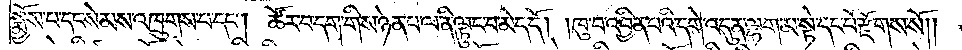སྨྱོས་པ་དང་སེམས་འཁྲུགས་པ་དང༌། ཚོར་བ་དག་གིས་ཉེན་པ་ལ་ནི་ལྟུང་བ་མེད་དོ། །ཁུ་བ་འབྱིན་པའི་དགེ་འདུན་ལྷག་མ་སྟེ་དང་པོ་རྫོགས་སོ༎
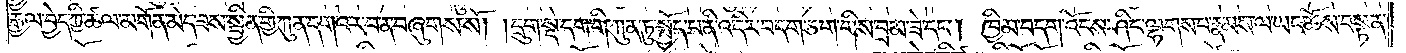རྒྱལ་བྱེད་ཀྱི་ཚལ་མགོན་མེད་ཟས་སྦྱིན་གྱི་ཀུན་དགའ་ར་བ་ན་བཞུགས་སོ། །དྲུག་སྡེ་དག་གི་ཀུན་ཏུ་སྤྱོད་པ་ནི་འདིར་བདག་ཅག་གིས་བྲམ་ཟེ་དང༌། ཁྱིམ་བདག་འོངས་ཤིང་ལྷགས་པ་རྣམས་ལ་ཡང་ཆོས་བསྟན་
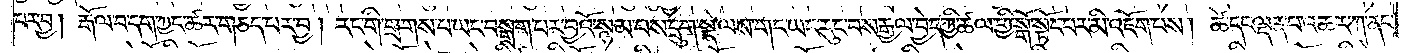པར་བྱ། རྒོལ་བ་དག་ཀྱང་ཚར་གཅད་པར་བྱ། རང་གི་གྲགས་པ་ཡང་བསྒྲག་པར་བྱའོ་སྙམ་པས་དྲུག་སྡེ་ལས་གང་ཡང་རུང་བས་རྒྱལ་བྱེད་ཀྱི་ཚལ་གྱི་སྒོ་སྟོང་པར་མི་འཇོག་པས། ཚེ་དང་ལྡན་པ་འཆར་ཀ་ནང་
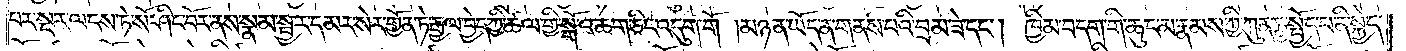པར་སྔར་ལངས་ཏེ་སོ་ཤིང་བོར་ནས་སྣམ་སྦྱར་དམར་སེར་གྱོན་ཏེ་རྒྱལ་བྱེད་ཀྱི་ཚལ་གྱི་སྒོ་འཆག་ཅིང་འདུག་གོ །མཉན་ཡོད་ན་གནས་པའི་བྲམ་ཟེ་དང༌། ཁྱིམ་བདག་གི་ཆུང་མ་རྣམས་ཀྱི་ཀུན་ཏུ་སྤྱོད་པ་ནི་སྐྱེད་
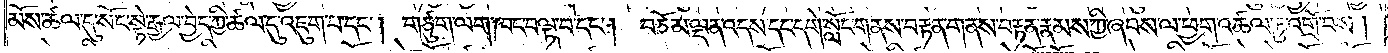མོས་ཚལ་དུ་སོང་སྟེ་རྒྱལ་བྱེད་ཀྱི་ཚལ་དུ་འཇུག་པ་དང༌། གཙུག་ལག་ཁང་བལྟ་བ་དང༌། བཅོམ་ལྡན་འདས་དང་དགེ་སློང་གནས་བརྟན་གནས་བརྟན་རྣམས་ཀྱི་ཞབས་ལ་ཕྱག་འཚལ་ཏུ་འགྲོ་བས།
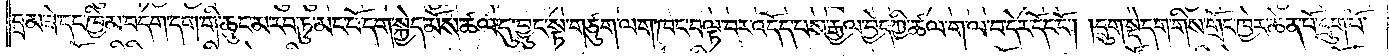བྲམ་ཟེ་དང་ཁྱིམ་བདག་དག་གི་ཆུང་མ་རབ་ཏུ་མང་པོ་དག་སྐྱེད་མོས་ཚལ་དུ་བྱུང་སྟེ་གཙུག་ལག་ཁང་བལྟ་བར་འདོད་པས་རྒྱལ་བྱེད་ཀྱི་ཚལ་ག་ལ་བ་དེར་དོང་ངོ༌། །དྲུག་སྡེ་དག་གིས་གྲོང་ཁྱེར་ཆེན་པོ་དྲུག་པོ་
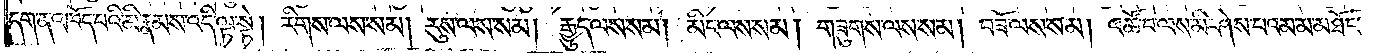དག་ན་འཁོད་པའི་མི་རྣམས་འདི་ལྟ་སྟེ། རིགས་ལས་སམ། རུས་ལས་སམ། རྒྱུད་ལས་སམ། མིང་ལས་སམ། གཟུགས་ལས་སམ། བཟོ་ལས་སམ། འཚོ་བ་ལས་མི་ཤེས་པའམ་མ་མཐོང་
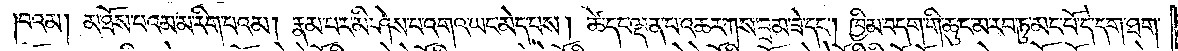།བའམ། མ་ཐོས་པའམ་མ་རིག་པའམ། རྣམ་པར་མི་ཤེས་པ་འགའ་ཡང་མེད་པས། ཚེ་དང་ལྡན་པ་འཆར་ཀས་བྲམ་ཟེ་དང༌། ཁྱིམ་བདག་གི་ཆུང་མ་རབ་ཏུ་མང་པོ་དེ་དག་ཐག་
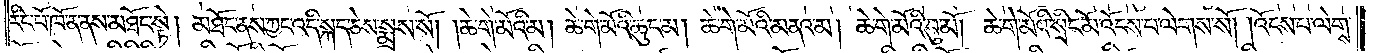རིང་པོ་ཁོ་ན་ནས་མཐོང་སྟེ། མཐོང་ནས་ཀྱང་འདི་སྐད་ཅེས་སྨྲས་སོ། །ཆེ་གེ་མོའི་མ། ཆེ་གེ་མོའི་ཆུང་མ། ཆེ་གེ་མོའི་མནའ་མ། ཆེ་གེ་མོའི་བུ་མོ། ཆེ་གེ་མོའི་སྲིང་མོ་འོངས་པ་ལེགས་སོ། །འོངས་པ་ལེགས་
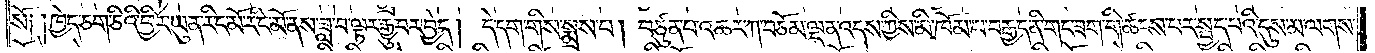སོ༑ ༑ཁྱེད་ཅག་ཅིའི་ཕྱིར་ཡུན་རིང་མོ་རིང་མོ་ནས་ཟླ་བ་ལྟར་རྒྱུ་བར་བྱེད། དེ་དག་གིས་སྨྲས་པ། བཙུན་པ་འཆར་ཀ་བཅོམ་ལྡན་འདས་ཀྱིས་མི་ཁོམ་པ་བརྒྱད་ནི་གང་ཟག་གི་ཚངས་པར་སྤྱད་པའི་དུས་མ་ལགས་
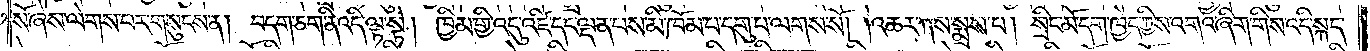སོ་ཞེས་ལེགས་པར་གསུངས་ན། བདག་ཅག་ནི་འདི་ལྟ་སྟེ། ཁྱིམ་གྱི་འདུ་འཛི་དང་ལྡན་པས་མི་ཁོམ་པ་དགུ་པ་ལགས་སོ། །འཆར་ཀས་སྨྲས་པ། སྲིང་མོ་དག་ཁྱེད་ཀྱིས་འགའ་ཞིག་གིས་འདི་སྐད་
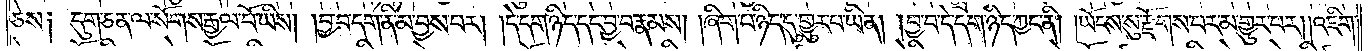ཅེས༑ དུག་ཅན་ལ་སོགས་རྒྱལ་པོ་ཡིས། །བྱ་བ་དག་ནི་མ་བྱས་པར། །དེ་དག་ཉིད་དང་བྱ་བ་རྣམས། །ཞིག་པ་ཉིད་དུ་གྱུར་པ་ཡིན། །བྱ་བ་དེ་དག་ཉིད་ཀྱང་ནི། །ཡོངས་སུ་རྫོགས་པར་མ་གྱུར་པར། །འཇིག་
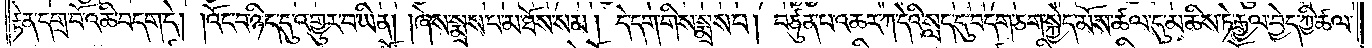རྟེན་དགྲ་བོ་འཆི་བདག་དེ། །འོང་བ་ཉིད་དུ་འགྱུར་བ་ཡིན། །ཞེས་སྨྲས་པ་མ་ཐོས་སམ། དེ་དག་གིས་སྨྲས་པ། བཙུན་པ་འཆར་ཀ་དེའི་སླད་དུ་བདག་ཅག་སྐྱེད་མོས་ཚལ་དུ་མཆིས་ཏེ་རྒྱལ་བྱེད་ཀྱི་ཚལ་
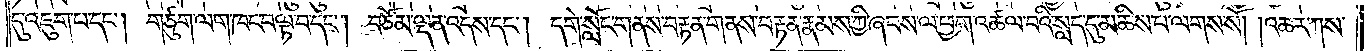དུ་འཇུག་པ་དང༌། གཙུག་ལག་ཁང་བལྟ་བ་དང༌། བཅོམ་ལྡན་འདས་དང༌། དགེ་སློང་གནས་བརྟན་གནས་བརྟན་རྣམས་ཀྱི་ཞབས་ལ་ཕྱག་འཚལ་བའི་སླད་དུ་མཆིས་པ་ལགས་སོ། །འཆར་ཀས་
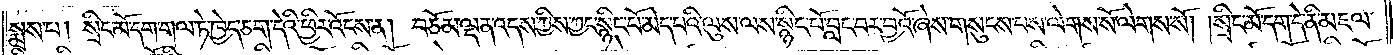སྨྲས་པ། སྲིང་མོ་དག་གལ་ཏེ་ཁྱེད་ཅག་དེའི་ཕྱིར་འོངས་ན། བཅོམ་ལྡན་འདས་ཀྱིས་ཀྱང་སྙིང་པོ་མེད་པའི་ལུས་ལས་སྙིང་པོ་བླང་བར་བྱའོ་ཞེས་གསུངས་པས་ལེགས་སོ་ལེགས་སོ། །སྲིང་མོ་དག་དེ་ནི་མཇལ་
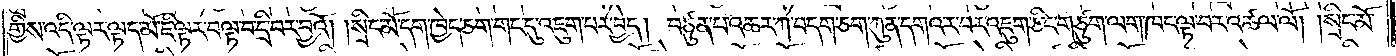གྱིས་འདི་ལྟར་ལྟད་མོ་ཇི་ལྟར་བལྟ་བ་དྲི་བར་བྱའོ། །སྲིང་མོ་དག་ཁྱེད་ཅག་གང་དུ་འཇུག་པར་བྱེད། བཙུན་པ་འཆར་ཀ་བདག་ཅག་ཀུན་དགའ་ར་བར་འཇུག་ཅིང་གཙུག་ལག་ཁང་ལྟ་བར་འཚལ་ལོ། །སྲིང་མོ་
